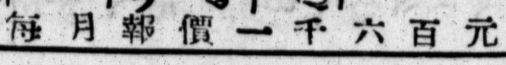每 月 報 價 一 千 六 百 元
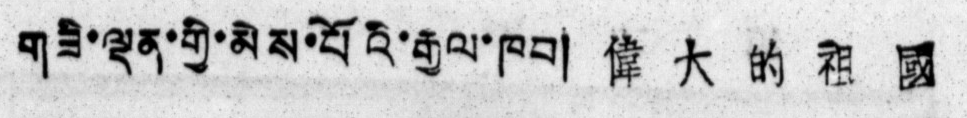གཟི་ལྡན་གྱི་མེས་པོའི་རྒྱལ་ཁབ། 偉 大 的 祖 國
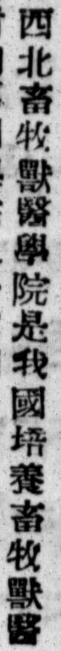西北畜牧獸醫學院是我國培養畜牧獸醫
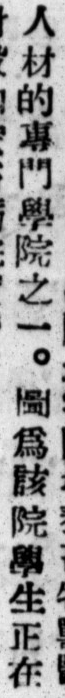人材的專門學院之一。圖爲該院學生正在
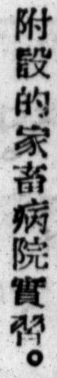附設的家畜病院實習。
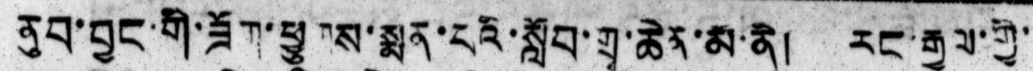ནུབ་བྱང་གི་ཟོག་ཕྱུགས་སྨན་པའི་སློབ་གྲྭ་ཆེན་མ་ནི། རང་རྒྱལ་གྱི་
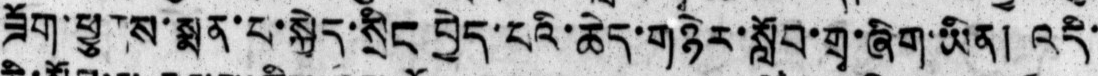ཟོག་ཕྱུགས་སྨན་པ་སྐྱེད་སྲིང བྱེད་པའི་ཆེད་གཉེར་སློབ་གྲྭ་ཞིག་ཡིན། འདི་
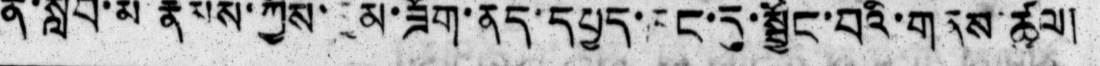ནི་སློབ་མ རྣམས་ཀྱིས་མ་ཟོག་ནད་དཔྱད་རང་དུ་སྦྱོང་བའི་གནས་ཚུལ།
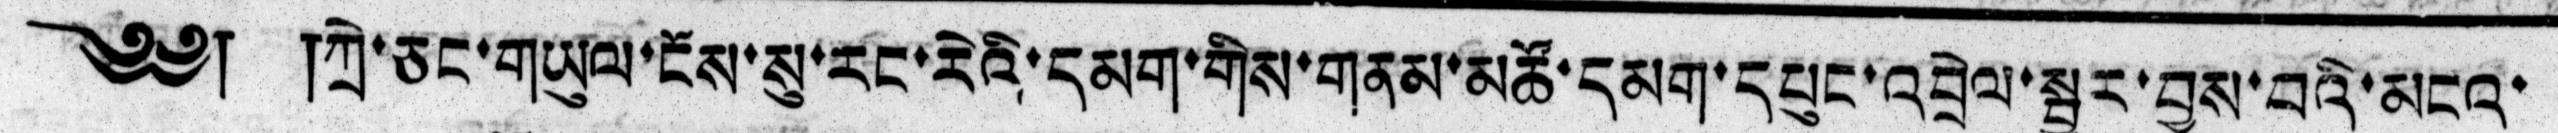༄༅། །ཀྲེ་ཅང་གཡུལ་ངོས་སུ་རང་རེའི་དམག་གིས་གནམ་མཚོ་དམག་དཔུང་འབྲེལ་སྦྱར་བྱས་པའི་མངའ་
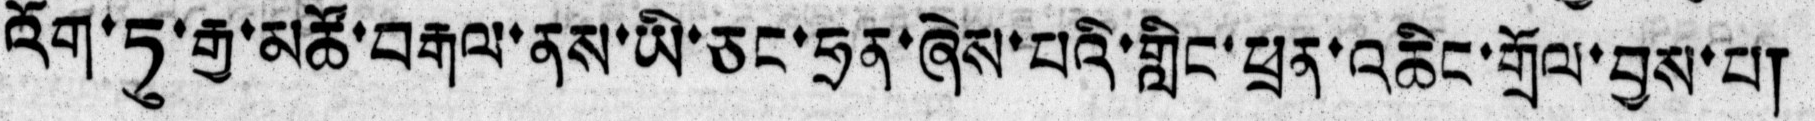འོག་ཏུ་རྒྱ་མཚོ་བརྒལ་ནས་ཡི་ཅང་ཧྲན་ཞེས་པའི་གླིང་ཕྲན་འཆིང་གྲོལ་བྱས་པ།
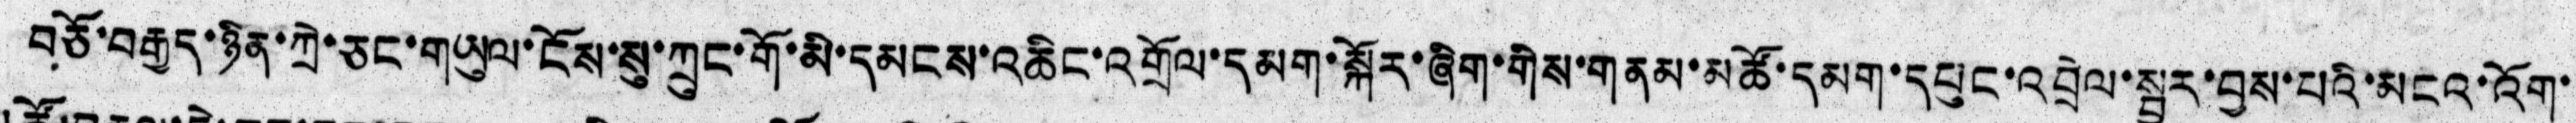བཅོ་བརྒྱད་ཉིན་ཀྲེ་ཅང་གཡུལ་ངོས་སུ་ཀྲུང་གོ་མི་དམངས་འཆིང་འགྲོལ་དམག་སྐོར་ཞིག་གིས་གནམ་མཚོ་དམག་དཔུང་འབྲེལ་སྦྱར་བྱས་པའི་མངའ་འོག་
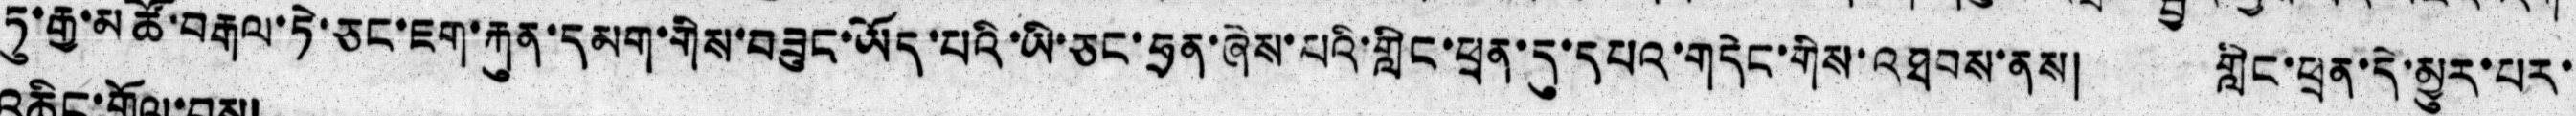ཏུ་རྒྱ་མཚོ་བརྒལ་ཏེ་ཅང་ཇག་རྐུན་དམག་གིས་བཟུང་ཡོད་པའི་ཡི་ཅང་ཧྲན་ཞེས་པའི་གླིང་ཕྲན་དུ་དཔའ་གདེང་གིས་འཐབས་ནས། གླིང་ཕྲན་དེ་མྱུར་པར
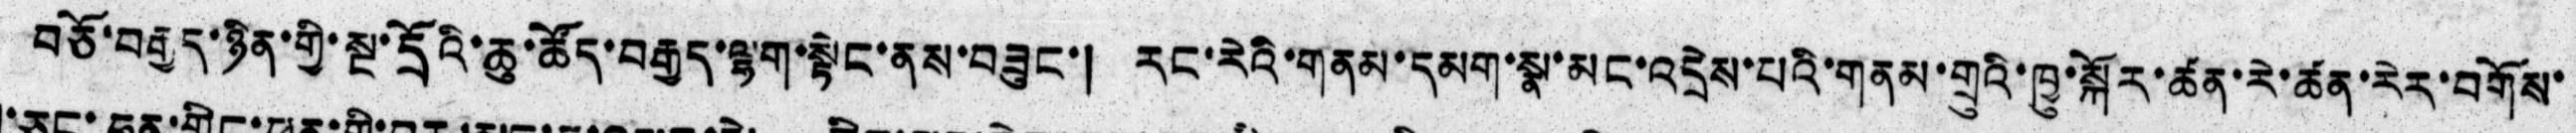བཅོ་བརྒྱད་ཉིན་གྱི་སྔ་དྲོའི་ཆུ་ཚོད་བརྒྱད་ལྷག་སྟེང་ནས་བཟུང་། རང་རེའི་གནམ་དམག་སྣ་མང་འདྲེས་པའི་གནམ་གྲུའི་ཁྱུ་སྐོར་ཚན་རེ་ཚན་རེར་བགོས་
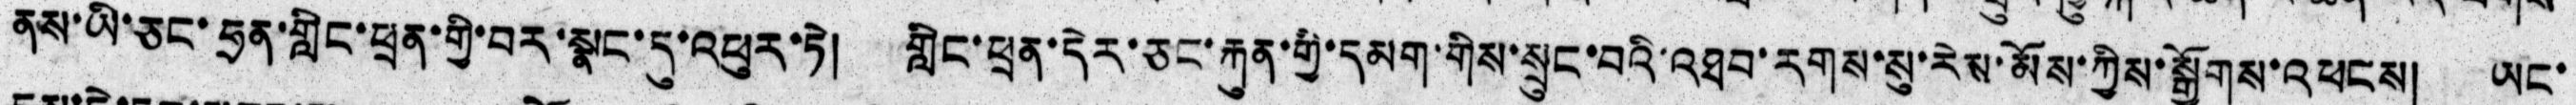ནས་ཡི་ཅང་ཧྲན་གླིང་ཕྲན་གྱི་བར་སྣང་དུ་འཕུར་ཏེ། གླིང་ཕྲན་དེར་ཅང་རྐུན་གྱི་དམག་གིས་སྲུང་བའི་འཐབ་རགས་སུ་རེས་མོས་ཀྱིས་སྒྱོགས་འཕངས། ཡང་
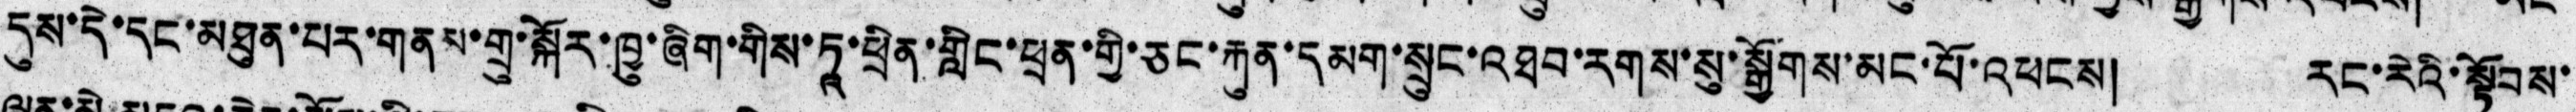དུས་དེ་དང་མཐུན་པར་གནས་གྲུ་སྐོར་ཁྱུ་ཞིག་གིས་ཏཱ་ཕྲིན་གླིང་ཕྲན་གྱི་ཅང་རྐུན་དམག་སྲུང་འཐབ་རགས་སུ་སྒྱོགས་མང་པོ་འཕངས། རང་རེའི་སྟོབས་
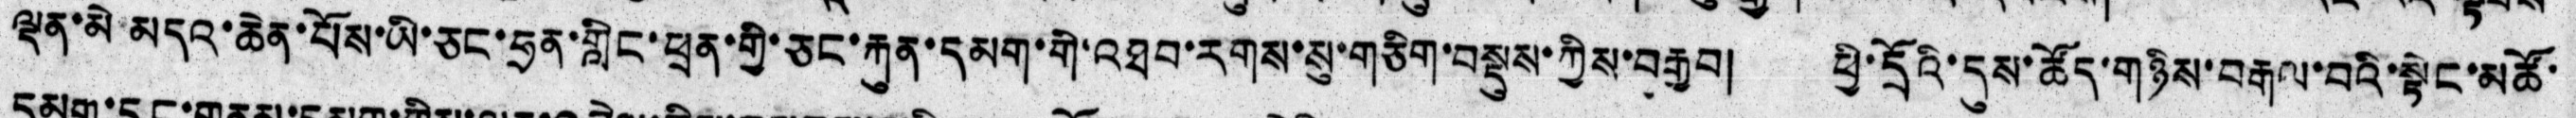ལྡན་མེ་མདའ་ཆེན་པོས་ཡི་ཅང་ཧྲན་གླིང་ཕྲན་གྱི་ཅང་རྐུན་དམག་གི་འཐབ་རགས་སུ་གཅིག་བསྡུས་ཀྱིས་བརྒྱབ། ཕྱི་དྲོའི་དུས་ཚོད་གཉིས་བརྒལ་བའི་སྟེང་མཚོ་
